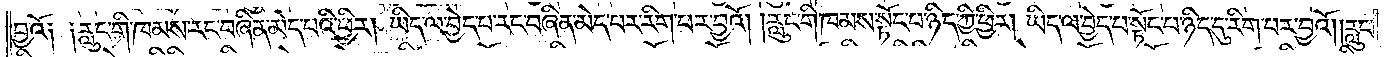བྱའོ༏ ༏རླུང་གི་ཁམས་རང་བཞིན་མེད་པའི་ཕྱིར། ཡིད་ལ་བྱེད་པ་རང་བཞིན་མེད་པར་རིག་པར་བྱའོ། །རླུང་གི་ཁམས་སྟོང་པ་ཉིད་ཀྱི་ཕྱིར། ཡིད་ལ་བྱེད་པ་སྟོང་པ་ཉིད་དུ་རིག་པར་བྱའོ། །རླུང་
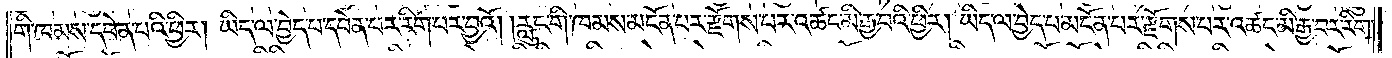གི་ཁམས་དབེན་པའི་ཕྱིར། ཡིད་ལ་བྱེད་པ་དབེན་པར་རིག་པར་བྱའོ། །རླུང་གི་ཁམས་མངོན་པར་རྫོགས་པར་འཚང་མི་རྒྱ་བའི་ཕྱིར། ཡིད་ལ་བྱེད་པ་མངོན་པར་རྫོགས་པར་འཚང་མི་རྒྱ་བར་རིག་
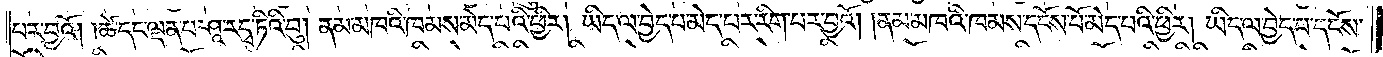པར་བྱའོ། །ཚེ་དང་ལྡན་པ་ཤཱ་ར་དྭ་ཏིའི་བུ། ནམ་མཁའི་ཁམས་མེད་པའི་ཕྱིར། ཡིད་ལ་བྱེད་པ་མེད་པར་རིག་པར་བྱའོ། ནམ་མཁའི་ཁམས་དངོས་པོ་མེད་པའི་ཕྱིར། ཡིད་ལ་བྱེད་པ་དངོས་
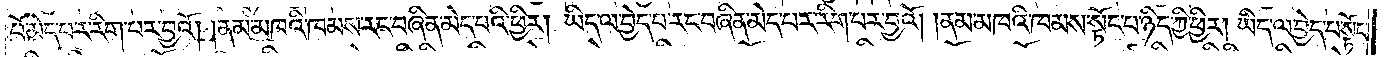པོ་མེད་པར་རིག་པར་བྱའོ། །ནམ་མཁའི་ཁམས་རང་བཞིན་མེད་པའི་ཕྱིར། ཡིད་ལ་བྱེད་པ་རང་བཞིན་མེད་པར་རིག་པར་བྱའོ། །ནམ་མཁའི་ཁམས་སྟོང་པ་ཉིད་ཀྱི་ཕྱིར། ཡིད་ལ་བྱེད་པ་སྟོང་
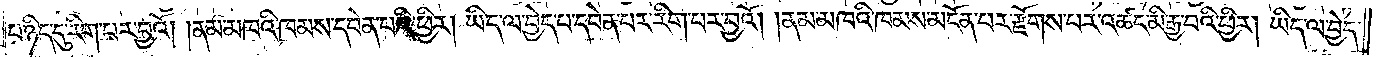པ་ཉིད་དུ་རིག་པར་བྱའོ། །ནམ་མཁའི་ཁམས་དབེན་པའི་ཕྱིར། ཡིད་ལ་བྱེད་པ་དབེན་པར་རིག་པར་བྱའོ། །ནམ་མཁའི་ཁམས་མངོན་པར་རྫོགས་པར་འཚང་མི་རྒྱ་བའི་ཕྱིར། ཡིད་ལ་བྱེད་
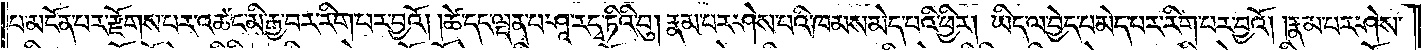པ་མངོན་པར་རྫོགས་པར་འཚང་མི་རྒྱ་བར་རིག་པར་བྱའོ། །ཚེ་དང་ལྡན་པ་ཤཱ་ར་དྭ་ཏིའི་བུ། རྣམ་པར་ཤེས་པའི་ཁམས་མེད་པའི་ཕྱིར། ཡིད་ལ་བྱེད་པ་མེད་པར་རིག་པར་བྱའོ། །རྣམ་པར་ཤེས་
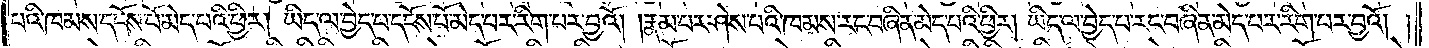པའི་ཁམས་དངོས་པོ་མེད་པའི་ཕྱིར། ཡིད་ལ་བྱེད་པ་དངོས་པོ་མེད་པར་རིག་པར་བྱའོ། །རྣམ་པར་ཤེས་པའི་ཁམས་རང་བཞིན་མེད་པའི་ཕྱིར། ཡིད་ལ་བྱད་པ་རང་བཞིན་མེད་པར་རིག་པར་བྱའོ། །
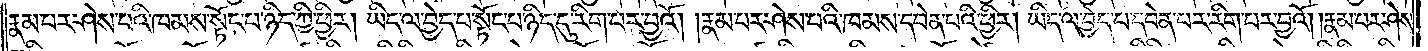རྣམ་པར་ཤེས་པའི་ཁམས་སྟོང་པ་ཉིད་ཀྱི་ཕྱིར། ཡིད་ལ་བྱེད་པ་སྟོང་པ་ཉིད་དུ་རིག་པར་བྱའོ། །རྣམ་པར་ཤེས་པའི་ཁམས་དབེན་པའི་ཕྱིར། ཡིད་ལ་བྱེད་པ་དབེན་པར་རིག་པར་བྱའོ། །རྣམ་པར་ཤེས་
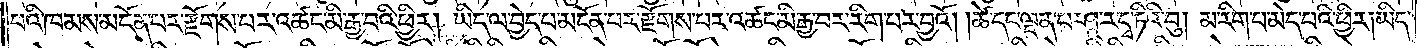པའི་ཁམས་མངོན་པར་རྫོགས་པར་འཚང་མི་རྒྱ་བའི་ཕྱིར། ཡིད་ལ་བྱེད་པ་མངོན་པར་རྫོགས་པར་འཚང་མི་རྒྱ་བར་རིག་པར་བྱའོ། །ཚེ་དང་ལྡན་པ་ཤཱ་ར་དྭ་ཏིའི་བུ། མ་རིག་པ་མེད་པའི་ཕྱིར། ཡིད་
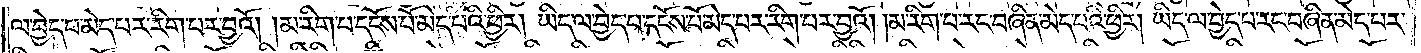ལ་བྱེད་པ་མེད་པར་རིག་པར་བྱའོ། །མ་རིག་པ་དངོས་པོ་མེད་པའི་ཕྱིར། ཡིད་ལ་བྱེད་པ་དངོས་པོ་མེད་པར་རིག་པར་བྱའོ། །མ་རིག་པ་རང་བཞིན་མེད་པའི་ཕྱིར། ཡིད་ལ་བྱེད་པ་རང་བཞིན་མེད་པར་
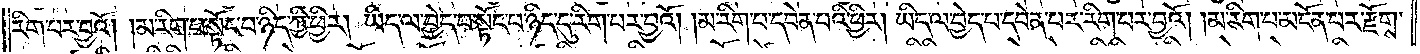རིག་པར་བྱའོ། །མ་རིག་པ་སྟོང་པ་ཉིད་ཀྱི་ཕྱིར། ཡིད་ལ་བྱེད་པ་སྟོང་པ་ཉིད་དུ་རིག་པར་བྱའོ། །མ་རིག་པ་དབེན་པའི་ཕྱིར། ཡིད་ལ་བྱེད་པ་དབེན་པར་རིག་པར་བྱའོ། །མ་རིག་པ་མངོན་པར་རྫོགས་
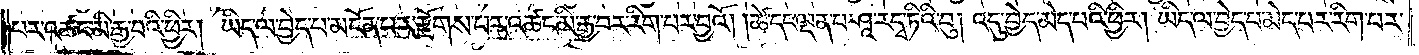པར་འཚང་མི་རྒྱ་བའི་ཕྱིར། ཡིད་ལ་བྱེད་པ་མངོན་པར་རྫོགས་པར་འཚང་མི་རྒྱ་བར་རིག་པར་བྱའོ། །ཚེ་དང་ལྡན་པ་ཤཱ་ར་དྭ་ཏིའི་བུ། འདུ་བྱེད་མེད་པའི་ཕྱིར། ཡིད་ལ་བྱེད་པ་མེད་པར་རིག་པར་
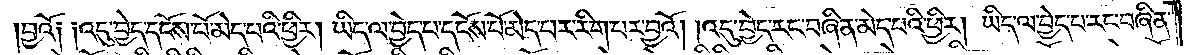བྱའོ༏ ༏འདུ་བྱེད་དངོས་པོ་མེད་པའི་ཕྱིར། ཡིད་ལ་བྱེད་པ་དངོས་པོ་མེད་པར་རིག་པར་བྱའོ། །འདུ་བྱེད་རང་བཞིན་མེད་པའི་ཕྱིར། ཡིད་ལ་བྱེད་པ་རང་བཞིན་
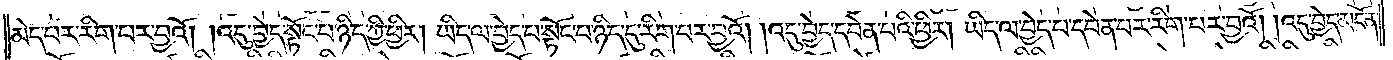མེད་པར་རིག་པར་བྱའོ། །འདུ་བྱེད་སྟོང་པ་ཉིད་ཀྱི་ཕྱིར། ཡིད་ལ་བྱེད་པ་སྟོང་པ་ཉིད་དུ་རིག་པར་བྱའོ། །འདུ་བྱེད་དབེན་པའི་ཕྱིར། ཡིད་ལ་བྱེད་པ་དབེན་པར་རིག་པར་བྱའོ། །འདུ་བྱེད་མངོན་
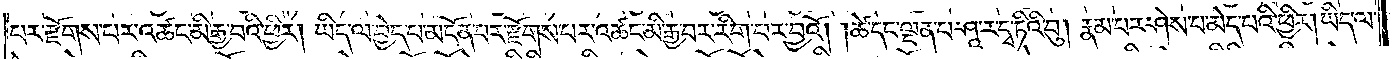པར་རྫོགས་པར་འཚང་མི་རྒྱ་བའི་ཕྱིར། ཡིད་ལ་བྱེད་པ་མངོན་པར་རྫོགས་པར་འཚང་མི་རྒྱ་བར་རིག་པར་བྱའོ། །ཚེ་དང་ལྡན་པ་ཤཱ་ར་དྭ་ཏིའི་བུ། རྣམ་པར་ཤེས་པ་མེད་པའི་ཕྱིར། ཡིད་ལ་
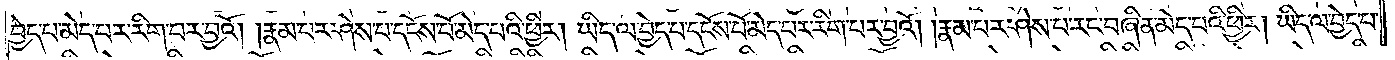བྱེད་པ་མེད་པར་རིག་པར་བྱའོ། །རྣམ་པར་ཤེས་པ་དངོས་པོ་མེད་པའི་ཕྱིར། ཡིད་ལ་བྱེད་པ་དངོས་པོ་མེད་པར་རིག་པར་བྱའོ། །རྣམ་པར་ཤེས་པ་རང་བཞིན་མེད་པའི་ཕྱིར། ཡིད་ལ་བྱེད་པ་
